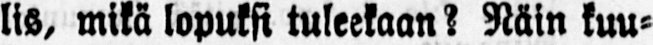lis, mikä lopuksi tuleekaan? Näin kuu-
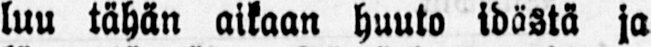luu tähän aikaan huuto idästä ja
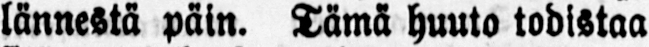lännestä päin. Tämä huuto todistaa
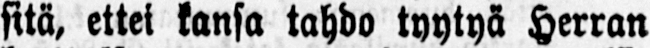sitä, ettei kansa tahdo tyytyä Herran
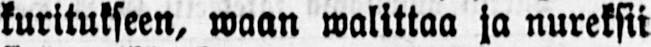kuritukseen, waan walittaa ja nureksii
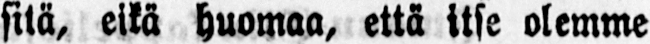sitä, eikä huomaa, että itse olemme
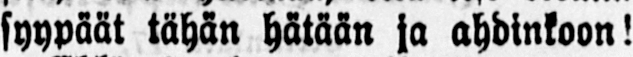syypäät tähän hätään ja ahdinkoon!
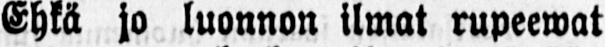Ehkä jo luonnon ilmat rupeewat
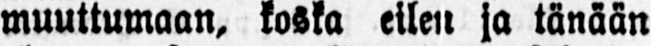muuttumaan, koska eilen ja tänään
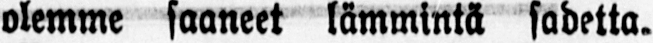olemme saaneet lämmintä sadetta.
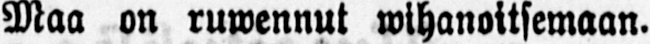Maa on ruwennut wihanoitsemaan.
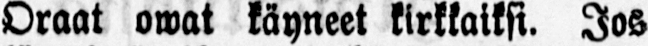Oraat owat käyneet kirkkaiksi. Jos
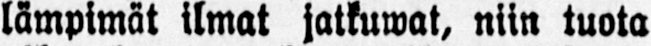lämpimät ilmat jatkuwat, niin tuota
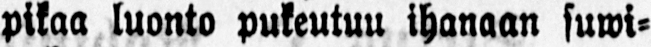pikaa luonto pukeutuu ihanaan suwi-
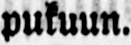pukuun.
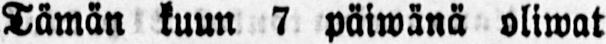Tämän kuun 7 päiwänä oliwat
